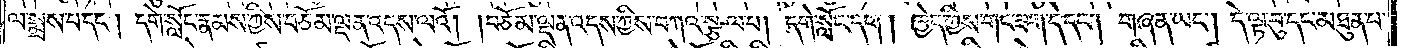ལ་སྨྲས་པ་དང༌། དགེ་སློང་རྣམས་ཀྱིས་བཅོམ་ལྡན་འདས་ལའོ། །བཅོམ་ལྡན་འདས་ཀྱིས་བཀའ་སྩལ་པ། དགེ་སློང་དག། ཁྱེད་ཀྱིས་གང་ཟག་དེ་དང༌། གཞན་ཡང༌། དེ་ལྟ་བུ་དང་མཐུན་པ་
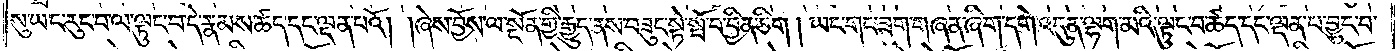སུ་ཡང་རུང་བ་ལ་ལྟུང་བ་དེ་རྣམས་ཚད་དང་ལྡན་པའོ། །ཞེས་བྱོས་ལ་སྔོན་གྱི་རྒྱུད་ནས་བཟུང་སྟེ་སྤོ་བ་བྱིན་ཅིག །ཡང་གང་ཟག་གཞན་ཞིག་དགེ་འདུན་ལྷག་མའི་ལྟུང་བ་ཚད་དང་ལྡན་པ་བྱུང་བ་
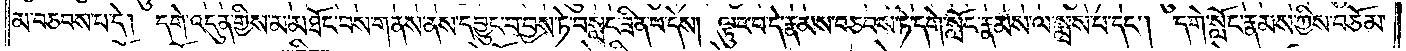མ་བཅབས་པ་དེ། དགེ་འདུན་གྱིས་མ་མཐོང་བས་གནས་ནས་དབྱུང་བ་བྱས་ཏེ་བསླང་ཟིན་པ་དེས། ལྟུང་བ་དེ་རྣམས་བཅབས་ཏེ་དགེ་སློང་རྣམས་ལ་སྨྲས་པ་དང༌། དགེ་སློང་རྣམས་ཀྱིས་བཅོམ་
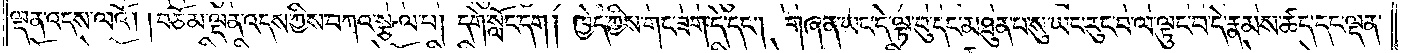ལྡན་འདས་ལའོ། །བཅོམ་ལྡན་འདས་ཀྱིས་བཀའ་སྩལ་པ། དགེ་སློང་དག། ཁྱེད་ཀྱིས་གང་ཟག་དེ་དང༌། གཞན་ཡང་དེ་ལྟ་བུ་དང་མཐུན་པ་སུ་ཡང་རུང་བ་ལ་ལྟུང་བ་དེ་རྣམས་ཚད་དང་ལྡན་
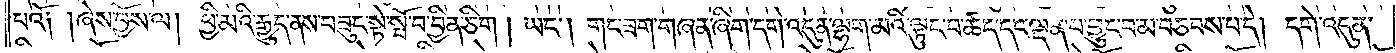པའོ། །ཞེས་བྱོས་ལ། ཕྱི་མའི་རྒྱུད་ནས་བཟུང་སྟེ་སྤོ་བ་བྱིན་ཅིག། ཡང༌། གང་ཟག་གཞན་ཞིག་དགེ་འདུན་ལྷག་མའི་ལྟུང་བ་ཚད་དང་ལྡན་པ་བྱུང་བ་མ་བཅབས་པ་དེ། དགེ་འདུན་
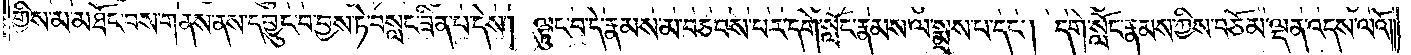གྱིས་མ་མཐོང་བས་གནས་ནས་དབྱུང་བ་བྱས་ཏེ་བསླང་ཟིན་པ་དེས། ལྟུང་བ་དེ་རྣམས་མ་བཅབས་པར་དགེ་སློང་རྣམས་ལ་སྨྲས་པ་དང༌། དགེ་སློང་རྣམས་ཀྱིས་བཅོམ་ལྡན་འདས་ལའོ།
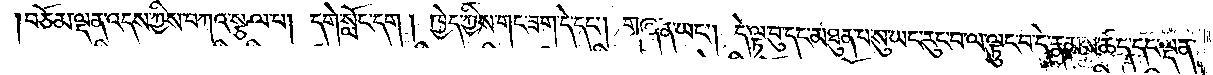བཅོམ་ལྡན་འདས་ཀྱིས་བཀའ་སྩལ་པ། དགེ་སློང་དག། ཁྱེད་ཀྱིས་གང་ཟག་དེ་དང༌། གཞན་ཡང༌། དེ་ལྟ་བུ་དང་མཐུན་པ་སུ་ཡང་རུང་བ་ལ་ལྟུང་བ་དེ་རྣམས་ཚད་དང་ལྡན་
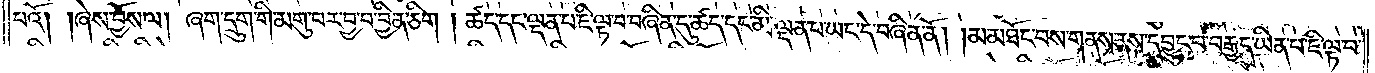པའོ། །ཞེས་བྱོས་ལ། ཞག་དྲུག་གི་མགུ་བར་བྱ་བ་བྱིན་ཅིག། ཚད་དང་ལྡན་པ་ཇི་ལྟ་བ་བཞིན་དུ་ཚད་དང་མི་ལྡན་པ་ཡང་དེ་བཞིན་ནོ། །མ་མཐོང་བས་གནས་ནས་དབྱུང་བ་བརྒྱད་ཡིན་པ་ཇི་ལྟ་བ་
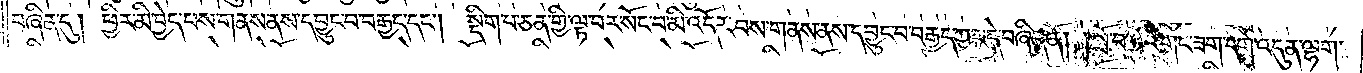བཞིན་དུ། ཕྱིར་མི་བྱེད་པས་གནས་ནས་དབྱུང་བ་བརྒྱད་དང༌། སྡིག་པ་ཅན་གྱི་ལྟ་བར་སོང་བ་མི་འདོར་བས་གནས་ནས་དབྱུང་བ་བརྒྱད་ཀྱང་དེ་བཞིན་ནོ། །སྤོ་བ་པོའི་གང་ཟག་དགེ་འདུན་ལྷག་
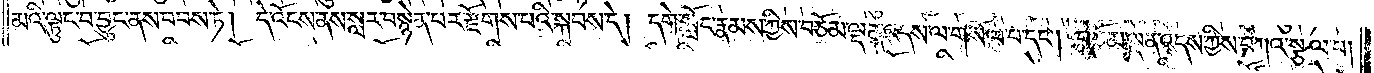མའི་ལྟུང་བ་བྱུང་ནས་བབས་ཏེ། དེ་འོངས་ནས་སླར་བསྙེན་པར་རྫོགས་པའི་སྐབས་དེ། དགེ་སློང་རྣམས་ཀྱིས་བཅོམ་ལྡན་འདས་ལ་གསོལ་པ་དང༌། བཅོམ་ལྡན་འདས་ཀྱིས་བཀའ་སྩལ་པ།
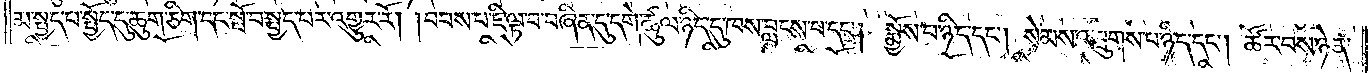མ་སྤྱད་པ་སྤྱོད་དུ་ཆུག་ཅིག་དང་སྤོ་བ་སྤྱད་པར་འགྱུར་རོ། །བབས་པ་ཇི་ལྟ་བ་བཞིན་དུ་དགེ་ཚུལ་ཉིད་དུ་ཁས་བླངས་པ་དང༌། སྨྱོས་པ་ཉིད་དང༌། སེམས་འཁྲུགས་པ་ཉིད་དང༌། ཚོར་བས་ཉེན་
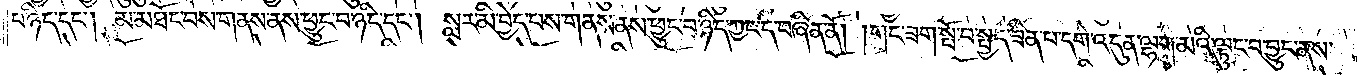པ་ཉིད་དང༌། མ་མཐོང་བས་གནས་ནས་ཕྱུང་བ་ཉིད་དང༌། སླར་མི་བྱེད་པས་གནས་ནས་ཕྱུང་བ་ཉིད་ཀྱང་དེ་བཞིན་ནོ། །གང་ཟག་སྤོ་བ་སྤྱད་ཟིན་པ་དགེ་འདུན་ལྷག་མའི་ལྟུང་བ་བྱུང་ནས་
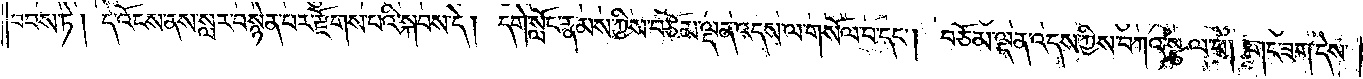བབས་ཏེ། དེ་འོངས་ནས་སླར་བསྙེན་པར་རྫོགས་པའི་སྐབས་དེ། དགེ་སློང་རྣམས་ཀྱིས་བཅོམ་ལྡན་འདས་ལ་གསོལ་པ་དང༌། བཅོམ་ལྡན་འདས་ཀྱིས་བཀའ་སྩལ་པ། གང་ཟག་དེས་
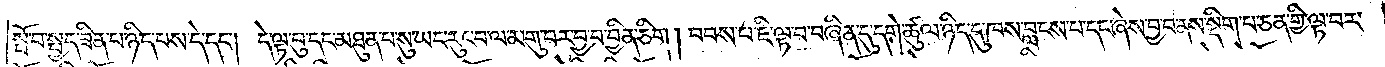སྤོ་བ་སྤྱད་ཟིན་པ་ཉིད་པས་དེ་དང༌། དེ་ལྟ་བུ་དང་མཐུན་པ་སུ་ཡང་རུང་བ་ལ་མགུ་བར་བྱ་བ་བྱིན་ཅིག། བབས་པ་ཇི་ལྟ་བ་བཞིན་དུ་དགེ་ཚུལ་ཉིད་དུ་ཁས་བླངས་པ་དང་ཞེས་བྱ་བ་ནས་སྡིག་པ་ཅན་གྱི་ལྟ་བར་
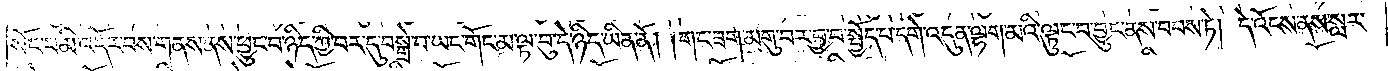སོང་བ་མི་འདོར་བས་གནས་ནས་ཕྱུང་བ་ཉིད་ཀྱི་བར་དུ་བསྒྲེ་བ་ཡང་གོང་མ་ལྟ་བུ་དེ་ཉིད་ཡིན་ནོ། །གང་ཟག་མགུ་བར་བྱ་བ་སྤྱོད་པ་དགེ་འདུན་ལྷག་མའི་ལྟུང་བ་བྱུང་ནས་བབས་ཏེ། དེ་འོངས་ནས་སླར་
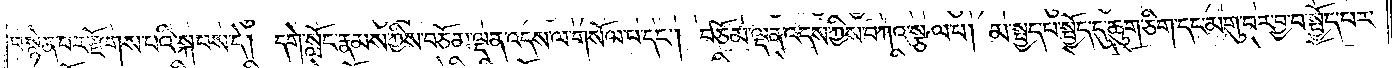བསྙེན་པར་རྫོགས་པའི་སྐབས་དེ། དགེ་སློང་རྣམས་ཀྱིས་བཅོམ་ལྡན་འདས་ལ་གསོལ་པ་དང༌། བཅོམ་ལྡན་འདས་ཀྱིས་བཀའ་སྩལ་པ། མ་སྤྱད་པ་སྤྱོད་དུ་ཆུག་ཅིག་དང་མགུ་བར་བྱ་བ་སྤྱོད་པར་
